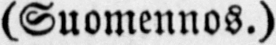(Suomennos.)
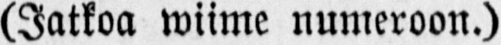(Jatkoa wiime numeroon.)
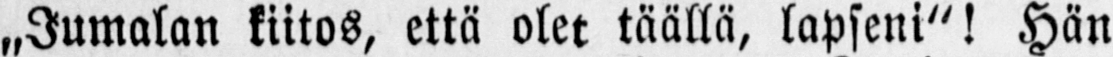Jumalan kiitos, että olet täällä, lapseni"! Hän
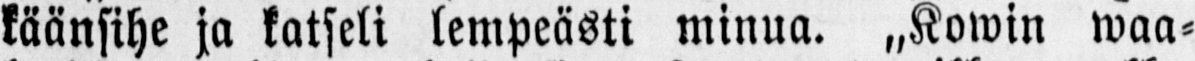käänsihe ja katseli lempeästi minua. „Kowin waa-
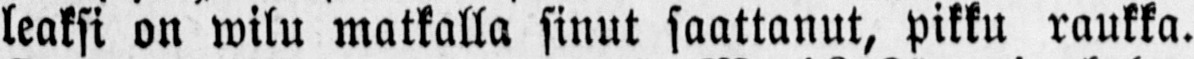leaksi on wilu matkalla sinut saattanut, pikku raukka.
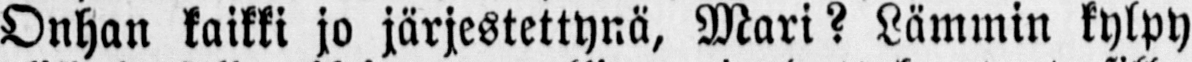Onhan kaikki jo järjestettynä, Mari? Lämmin kylpy
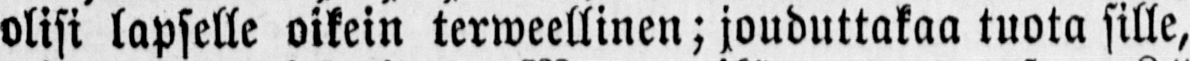olisi lapselle oikein teweellinen; jouduttakaa tuota sille,
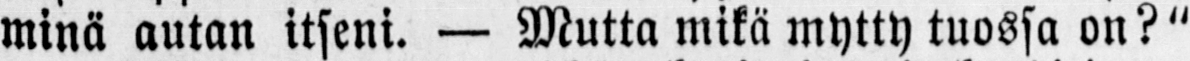minä autan itseni. — Mutta mikä mytty tuossa on?"
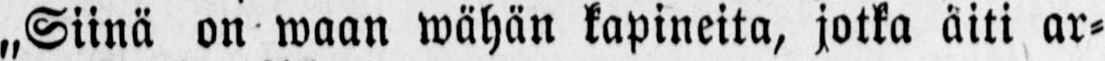„Siinä on waan wähän kapineita, jotka äiti ar-
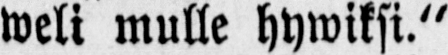weli mulle hywiksi."
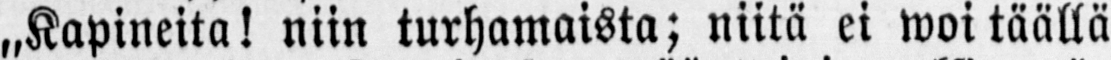„Kapineita! niin turhamaista; niitä ei woi täällä
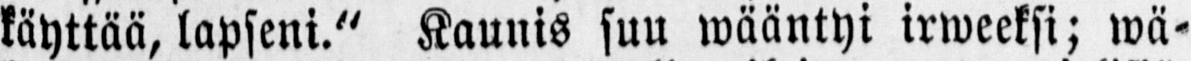käyttää, lapseni." Kaunis suu wääntyi irweeksi; wä-
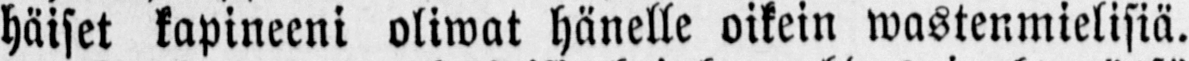häiset kapineeni oliwat hänelle oikein wastenmielisiä.
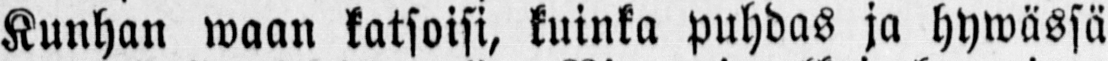Kunhan waan katsoisi, kuinka puhdas ja hywässä
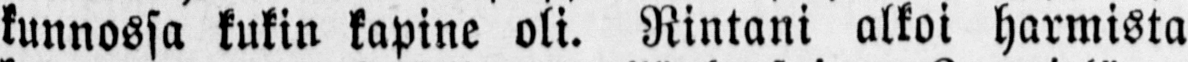kunnossa kukin kapine oli. Rintani alkoi harmista
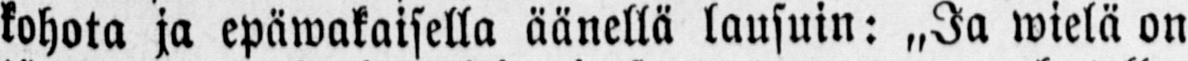kohota ja epäwakaisella äänellä lausuin: „Ja wielä on
